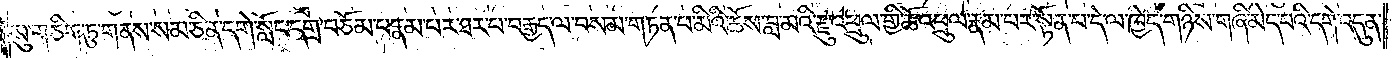སུ་གཅིག་ཏུ་གནས་སམ་ཅི་ན་དགེ་སློང་དགྲ་བཅོམ་པ་རྣམ་པར་ཐར་པ་བརྒྱད་ལ་བསམ་གཏན་པ་མིའི་ཆོས་བླ་མའི་རྫུ་འཕྲུལ་གྱི་ཆོ་འཕྲུལ་རྣམ་པར་སྟོན་པ་དེ་ལ་ཁྱེད་གཉིས་གཞི་མེད་པའི་དགེ་འདུན་
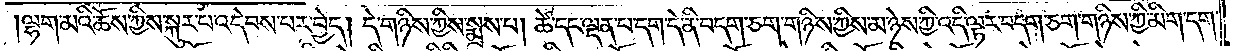ལྷག་མའི་ཆོས་ཀྱིས་སྐུར་བ་འདེབས་པར་བྱེད། དེ་གཉིས་ཀྱིས་སྨྲས་པ། ཚེ་དང་ལྡན་པ་དག་དེ་ནི་བདག་ཅག་གཉིས་ཀྱིས་མ་ཉེས་ཀྱི་འདི་ལྟར་བདག་ཅག་གཉིས་ཀྱི་མིག་དག་
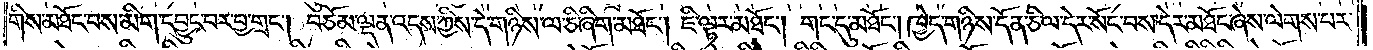གིས་མཐོང་བས་མིག་དབྱུང་བར་བྱ་གྲང༌། བཅོམ་ལྡན་འདས་ཀྱིས་དེ་གཉིས་ལ་ཅི་ཞིག་མཐོང༌། ཇི་ལྟར་མཐོང༌། གང་དུ་མཐོང༌། ཁྱེད་གཉིས་དོན་ཅི་ལ་དེར་སོང་བས་དེར་མཐོང་ཞེས་ལེགས་པར་
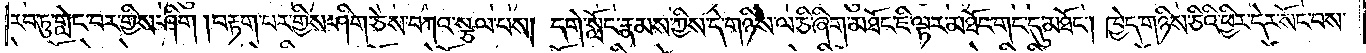རབ་ཏུ་གླེང་བར་གྱིས་ཤིག །བརྟག་པར་གྱིས་ཤིག་ཅེས་བཀའ་སྩལ་པ། དགེ་སློང་རྣམས་ཀྱིས་དེ་གཉིས་ལ་ཅི་ཞིག་མཐོང་ཇི་ལྟར་མཐོང་གང་དུ་མཐོང༌། ཁྱེད་གཉིས་ཅིའི་ཕྱིར་དེར་སོང་བས་
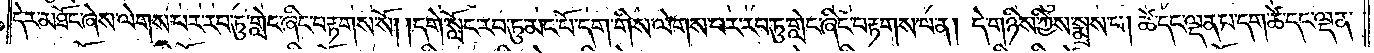དེར་མཐོང་ཞེས་ལེགས་པར་རབ་ཏུ་གླེང་ཞིང་བརྟགས་སོ། །དགེ་སློང་རབ་ཏུ་མང་པོ་དག་གིས་ལེགས་པར་རབ་ཏུ་གླེང་ཞིང་བརྟགས་པ་ན། དེ་གཉིས་ཀྱིས་སྨྲས་པ། ཚེ་དང་ལྡན་པ་དག་ཚེ་དང་ལྡན་
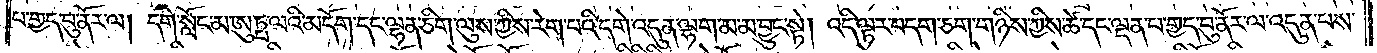པ་གྱད་བུ་ནོར་ལ། དགེ་སློང་མ་ཨུཏྤ་ལའི་མདོག་དང་ལྷན་ཅིག་ལུས་ཀྱིས་རེག་པའི་དགེ་འདུན་ལྷག་མ་མ་བྱུང་སྟེ། འདི་ལྟར་བདག་ཅག་གཉིས་ཀྱིས་ཚེ་དང་ལྡན་པ་གྱད་བུ་ནོར་ལ་འདུན་པས་
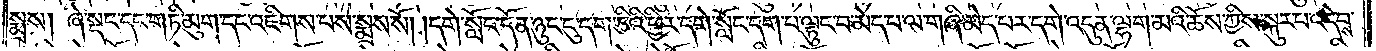སྨྲས། ཞེ་སྡང་དང་གཏི་མུག་དང་འཇིགས་པས་སྨྲས་སོ། །དགེ་སློང་དོན་ཉུང་ངུ་དག་ཅིའི་ཕྱིར་དགེ་སློང་དག་པ་ལྟུང་བ་མེད་པ་ལ་གཞི་མེད་པར་དགེ་འདུན་ལྷག་མའི་ཆོས་ཀྱིས་བསྐུར་བ་འདེབས་
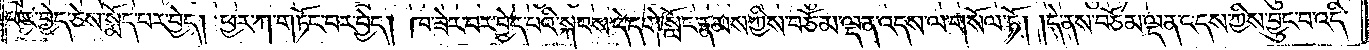བར་བྱེད་ཅེས་སྨོད་པར་བྱེད། ཕྱར་ཀ་གཏོང་བར་བྱེད། ཁ་ཟེར་བར་བྱེད་པའི་སྐབས་དེ་དགེ་སློང་རྣམས་ཀྱིས་བཅོམ་ལྡན་འདས་ལ་གསོལ་ཏོ། །དེ་ནས་བཅོམ་ལྡན་འདས་ཀྱིས་བྱུང་བ་འདི་
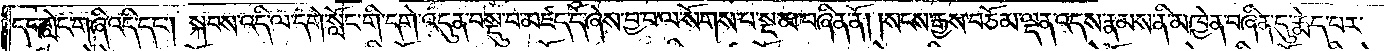དང་གླེང་གཞི་འདི་དང༌། སྐབས་འདི་ལ་དགེ་སློང་གི་དགེ་འདུན་བསྡུ་བ་མཛད་དོ་ཞེས་བྱ་བ་ལ་སོགས་པ་སྔ་མ་བཞིན་ནོ། །སངས་རྒྱས་བཅོམ་ལྡན་འདས་རྣམས་ནི་མཁྱེན་བཞིན་དུ་རྨེད་པར་
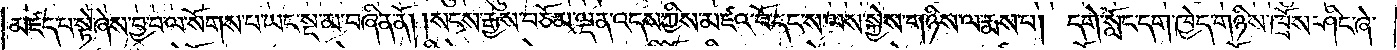མཛད་པ་སྟེ་ཞེས་བྱ་བ་ལ་སོགས་པ་ཡང་སྔ་མ་བཞིན་ནོ། །སངས་རྒྱས་བཅོམ་ལྡན་འདས་ཀྱིས་མཛའ་བོ་དང་ས་ལས་སྐྱེས་གཉིས་ལ་རྨས་པ། དགེ་སློང་དག་ཁྱེད་གཉིས་ཁྲོས་ཤིང་ཞེ་
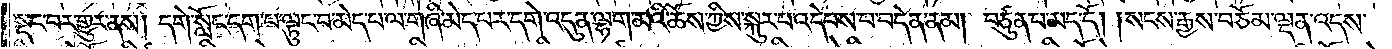སྡང་བར་གྱུར་ནས། དགེ་སློང་དག་པ་ལྟུང་བ་མེད་པ་ལ་གཞི་མེད་པར་དགེ་འདུན་ལྷག་མའི་ཆོས་ཀྱིས་སྐུར་བ་འདེབས་པ་བདེན་ནམ། བཙུན་པ་མད་དོ། །སངས་རྒྱས་བཅོམ་ལྡན་འདས་
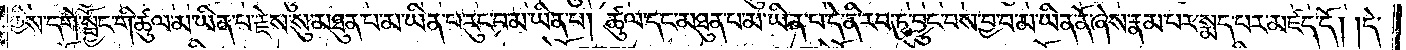ཀྱིས་དགེ་སྦྱོང་གི་ཚུལ་མ་ཡིན་པ་རྗེས་སུ་མཐུན་པ་མ་ཡིན་པ་རུང་བ་མ་ཡིན་པ། ཚུལ་དང་མཐུན་པ་ཡིན་དེ་ནི་རབ་ཏུ་བྱུང་བས་བྱ་བ་མ་ཡིན་ནོ་ཞེས་རྣམ་པར་སྨད་པར་མཛད་དོ། །དེ་
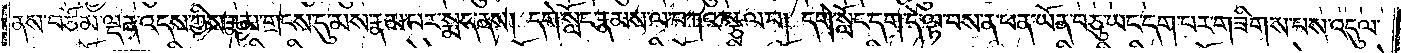ནས་བཅོམ་ལྡན་འདས་ཀྱིས་རྣམ་གྲངས་དུ་མས་རྣམ་པར་སྨད་ནས། དགེ་སློང་རྣམས་ལ་བཀའ་སྩལ་པ། དགེ་སློང་དག་དེ་ལྟ་བས་ན་ཕན་ཡོན་བཅུ་ཡང་དག་པར་གཟིགས་པས་འདུལ་
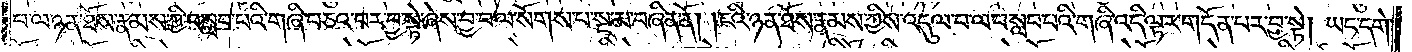བ་ལ་ཉན་ཐོས་རྣམས་ཀྱི་བསླབ་པའི་གཞི་བཅའ་བར་བྱ་སྟེ་ཞེས་བྱ་བ་ལ་སོགས་པ་སྔ་མ་བཞིན་ནོ། །ངའི་ཉན་ཐོས་རྣམས་ཀྱིས་འདུལ་བ་ལ་བསླབ་པའི་གཞི་འདི་ལྟར་གདོན་པར་བྱ་སྟེ། ཡང་དགེ་
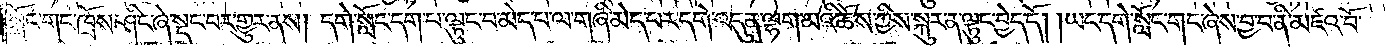སློང་གང་ཁྲོས་ཤིང་ཞེ་སྡང་པར་གྱུར་ནས། དགེ་སློང་དག་པ་ལྟུང་བ་མེད་པ་ལ་གཞི་མེད་པར་དགེ་འདུན་ལྷག་མའི་ཆོས་ཀྱིས་སྐུར་ན་ལྟུང་བྱེད་དོ། །ཡང་དགེ་སློང་གང་ཞེས་བྱ་བ་ནི་མཛའ་བོ་
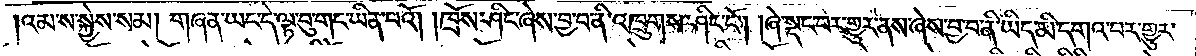འམ་ས་སྐྱེས་སམ། གཞན་ཡང་དེ་ལྟ་བུ་གང་ཡིན་པའོ། །ཁྲོས་ཤིང་ཞེས་བྱ་བ་ནི་འཁྲུགས་ཤིང་ངོ༌། །ཞེ་སྡང་བར་གྱུར་ནས་ཞེས་བྱ་བ་ནི་ཡིད་མི་དགའ་བར་གྱུར་
